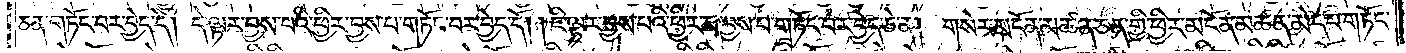ཅན་གཏོང་བར་བྱེད་དོ། དེ་ལྟར་བྱས་པའི་ཕྱིར་བྱས་པ་གཏོང་བར་བྱེད་དོ། །ཇི་ལྟར་བྱས་པའི་ཕྱིར་མ་བྱས་པ་གཏོང་བར་བྱེད་ཅེ་ན། གསེར་མངོན་མཚན་ཅན་གྱི་ཕྱིར་མངོན་མཚན་མེད་པ་གཏོང་
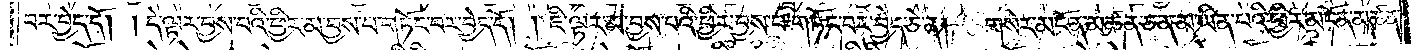བར་བྱེད་དོ། །དེ་ལྟར་བྱས་པའི་ཕྱིར་མ་བྱས་པ་གཏོང་བར་བྱེད་དོ། །ཇི་ལྟར་མ་བྱས་པའི་ཕྱིར་བྱས་པ་གཏོང་བར་བྱེད་ཅེ་ན། གསེར་མངོན་མཚན་ཅན་མ་ཡིན་པའི་ཕྱིར་མངོན་མཚན་
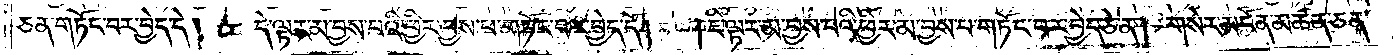ཅན་གཏོང་བར་བྱེད་དེ། དེ་ལྟར་མ་བྱས་པའི་ཕྱིར་བྱས་པ་གཏོང་བར་བྱེད་དོ། །ཇི་ལྟར་མ་བྱས་པའི་ཕྱིར་མ་བྱས་པ་གཏོང་བར་བྱེད་ཅེ་ན། གསེར་མངོན་མཚན་ཅན་
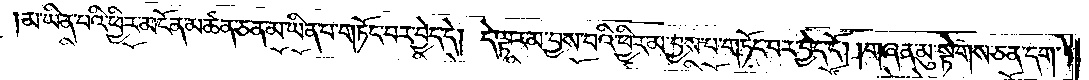མ་ཡིན་པའི་ཕྱིར་མངོན་མཚན་ཅན་མ་ཡིན་པ་གཏོང་བར་བྱེད་དེ། དེ་ལྟར་མ་བྱས་པའི་ཕྱིར་མ་བྱས་པ་གཏོང་བར་བྱེད་དོ། །གཞན་མུ་སྟེགས་ཅན་དག་
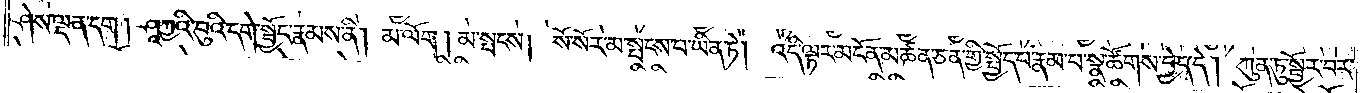ཤེས་ལྡན་དག། ཤཱཀྱའི་བུའི་དགེ་སྦྱོང་རྣམས་ནི། མ་ལོག །མ་སྤངས། སོ་སོར་མ་སྤངས་པ་ཡིན་ཏེ། འདི་ལྟར་མངོན་མཚན་ཅན་གྱི་སྤྱོད་པ་རྣམ་པ་སྣ་ཚོགས་བྱེད་དེ། ཀུན་ཏུ་སྦྱོར་བར་
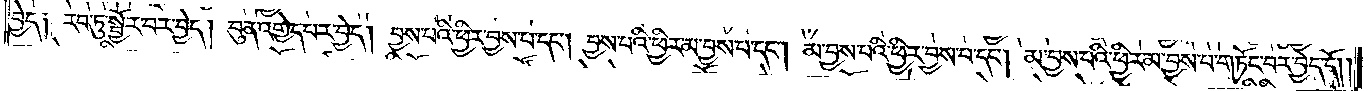བྱེད༑ རབ་ཏུ་སྦྱོར་བར་བྱེད། བུན་འགྱེད་པར་བྱེད། བྱས་པའི་ཕྱིར་བྱས་པ་དང༌། བྱས་པའི་ཕྱིར་མ་བྱས་པ་དང༌། མ་བྱས་པའི་ཕྱིར་བྱས་པ་དང༌། མ་བྱས་པའི་ཕྱིར་མ་བྱས་པ་གཏོང་བར་བྱེད་དོ། །
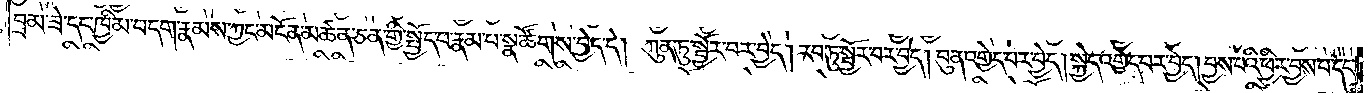བྲམ་ཟེ་དང་ཁྱིམ་བདག་རྣམས་ཀྱང་མངོན་མཚན་ཅན་གྱི་སྤྱོད་པ་རྣམ་པ་སྣ་ཚོགས་བྱེད་དེ། ཀུན་ཏུ་སྦྱོར་བར་བྱེད། རབ་ཏུ་སྦྱོར་བར་བྱེད། བུན་འགྱེད་པར་བྱེད། སྐྱེད་འགྱེད་པར་བྱེད། བྱས་པའི་ཕྱིར་བྱས་པ་དང༌།
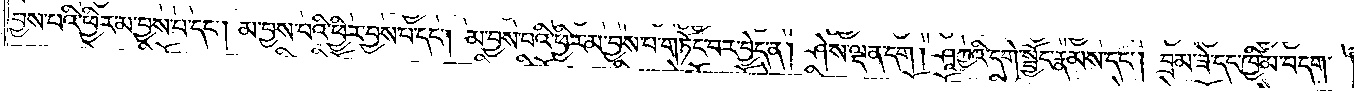བྱས་པའི་ཕྱིར་མ་བྱས་པ་དང༌། མ་བྱས་པའི་ཕྱིར་བྱས་པ་དང༌། མ་བྱས་པའི་ཕྱིར་མ་བྱས་པ་གཏོང་བར་བྱེད་ན། ཤེས་ལྡན་དག། ཤཱཀྱའི་དགེ་སྦྱོང་རྣམས་དང༌། བྲམ་ཟེ་དང་ཁྱིམ་བདག་
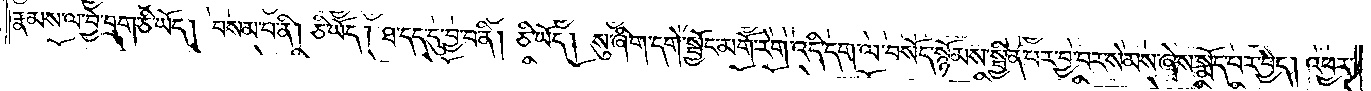རྣམས་ལ་བྱེ་བྲག་ཅི་ཡོད། བསམ་པ་ནི། ཅི་ཡོད། ཐ་དད་དུ་བྱ་བ་ནི། ཅི་ཡོད། སུ་ཞིག་དགེ་སྦྱོང་མགོ་རེག་འདི་དག་ལ་བསོད་སྙོམས་སྦྱིན་པར་བྱ་བར་སེམས་ཞེས་སྨོད་པར་བྱེད། འཕྱར་
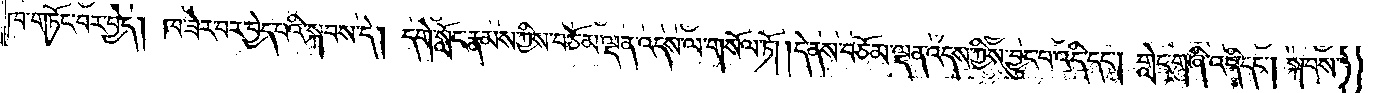ཁ་གཏོང་བར་བྱེད། ཁ་ཟེར་བར་བྱེད་པའི་སྐབས་དེ། དགེ་སློང་རྣམས་ཀྱིས་བཅོམ་ལྡན་འདས་ལ་གསོལ་ཏོ། །དེ་ནས་བཅོམ་ལྡན་འདས་ཀྱིས་བྱུང་བ་འདི་དང༌། གླེང་གཞི་འདི་དང༌། སྐབས་
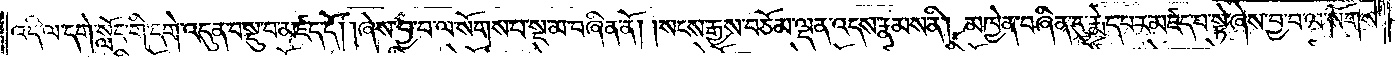འདི་ལ་དགེ་སློང་གི་དགེ་འདུན་བསྡུ་བ་མཛད་དོ། །ཞེས་བྱ་བ་ལ་སོགས་པ་སྔ་མ་བཞིན་ནོ། །སངས་རྒྱས་བཅོམ་ལྡན་འདས་རྣམས་ནི། མཁྱེན་བཞིན་དུ་རྨེད་པར་མཛད་པ་སྟེ་ཞེས་བྱ་བ་ལ་སོགས་
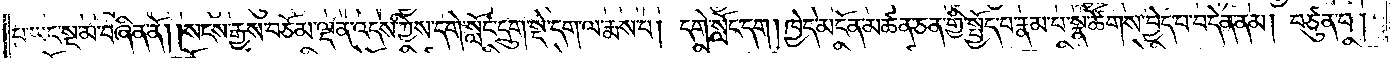པ་ཡང་སྔ་མ་བཞིན་ནོ། །སངས་རྒྱས་བཅོམ་ལྡན་འདས་ཀྱིས་དགེ་སློང་དྲུག་སྡེ་དག་ལ་རྨས་པ། དགེ་སློང་དག། ཁྱེད་མངོན་མཚན་ཅན་གྱི་སྤྱོད་པ་རྣམ་པ་སྣ་ཚོགས་བྱེད་པ་བདེན་ནམ། བཙུན་པ།
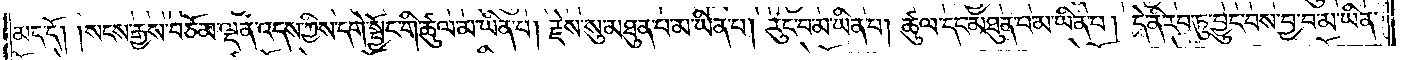མད་དོ། །སངས་རྒྱས་བཅོམ་ལྡན་འདས་ཀྱིས་དགེ་སྦྱོང་གི་ཚུལ་མ་ཡིན་པ། རྗེས་སུ་མཐུན་པ་མ་ཡིན་པ། རུང་བ་མ་ཡིན་པ། ཚུལ་དང་མཐུན་པ་མ་ཡིན་པ། དེ་ནི་རབ་ཏུ་བྱུང་བས་བྱ་བ་མ་ཡིན་
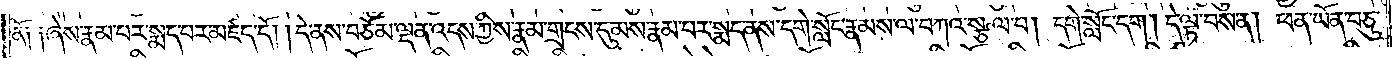ནོ༑ ༑ཞེས་རྣམ་པར་སྨད་པར་མཛད་དོ། །དེ་ནས་བཅོམ་ལྡན་འདས་ཀྱིས་རྣམ་གྲངས་དུ་མས་རྣམ་པར་སྨད་ནས་དགེ་སློང་རྣམས་ལ་བཀའ་སྩལ་པ། དགེ་སློང་དག། དེ་ལྟ་བས་ན། ཕན་ཡོན་བཅུ་
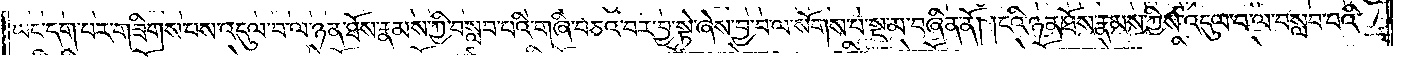ཡང་དག་པར་གཟིགས་པས་འདུལ་བ་ལ་ཉན་ཐོས་རྣམས་ཀྱི་བསླབ་པའི་གཞི་བཅའ་བར་བྱ་སྟེ་ཞེས་བྱ་བ་ལ་སོགས་པ་སྔ་མ་བཞིན་ནོ། །ངའི་ཉན་ཐོས་རྣམས་ཀྱིས་འདུལ་བ་ལ་བསླབ་པའི་
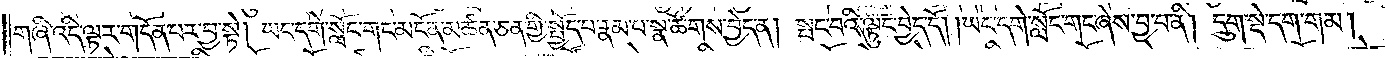གཞི་འདི་ལྟར་གདོན་པར་བྱ་སྟེ། ཡང་དགེ་སློང་གང་མངོན་མཚན་ཅན་གྱི་སྤྱོད་པ་རྣམ་པ་སྣ་ཚོགས་བྱེད་ན། སྤང་བའི་ལྟུང་བྱེད་དོ། །ཡང་དགེ་སློང་གང་ཞེས་བྱ་བ་ནི། དྲུག་སྡེ་དག་གམ།
